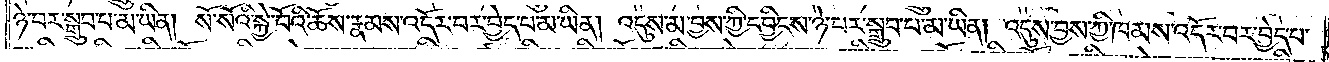ཉེ་བར་སྒྲུབ་པ་མ་ཡིན། སོ་སོའི་སྐྱེ་བོའི་ཆོས་རྣམས་འདོར་བར་བྱེད་པ་མ་ཡིན། འདུས་མ་བྱས་ཀྱི་དབྱིངས་ཉེ་བར་སྒྲུབ་པ་མ་ཡིན། འདུས་བྱས་ཀྱི་ཁམས་འདོར་བར་བྱེད་པ་
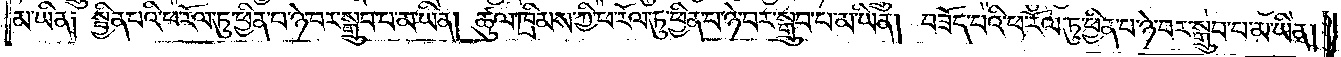མ་ཡིན། སྦྱིན་པའི་ཕ་རོལ་ཏུ་ཕྱིན་པ་ཉེ་བར་སྒྲུབ་པ་མ་ཡིན། ཚུལ་ཁྲིམས་ཀྱི་ཕ་རོལ་ཏུ་ཕྱིན་པ་ཉེ་བར་སྒྲུབ་པ་མ་ཡིན། བཟོད་པའི་ཕ་རོལ་ཏུ་ཕྱིན་པ་ཉེ་བར་སྒྲུབ་པ་མ་ཡིན།
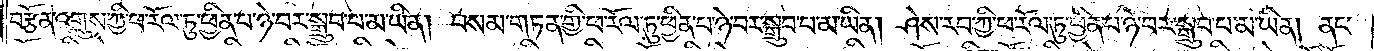བརྩོན་འགྲུས་ཀྱི་ཕ་རོལ་ཏུ་ཕྱིན་པ་ཉེ་བར་སྒྲུབ་པ་མ་ཡིན། བསམ་གཏན་གྱི་ཕ་རོལ་ཏུ་ཕྱིན་པ་ཉེ་བར་སྒྲུབ་པ་མ་ཡིན། ཤེས་རབ་ཀྱི་ཕ་རོལ་ཏུ་ཕྱིན་པ་ཉེ་བར་སྒྲུབ་པ་མ་ཡིན། ནང་
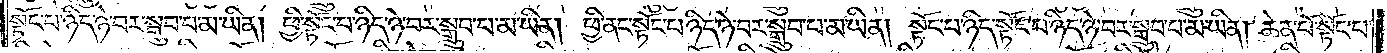སྟོང་པ་ཉིད་ཉེ་བར་སྒྲུབ་པ་མ་ཡིན། ཕྱི་སྟོང་པ་ཉིད་ཉེ་བར་སྒྲུབ་པ་མ་ཡིན། ཕྱི་ནང་སྟོང་པ་ཉིད་ཉེ་བར་སྒྲུབ་པ་མ་ཡིན། སྟོང་པ་ཉིད་སྟོང་པ་ཉིད་ཉེ་བར་སྒྲུབ་པ་མ་ཡིན། ཆེན་པོ་སྟོང་པ་
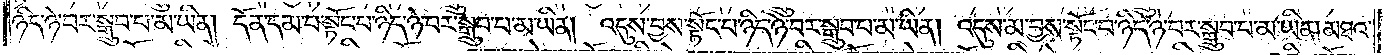ཉིད་ཉེ་བར་སྒྲུབ་པ་མ་ཡིན། དོན་དམ་པ་སྟོང་པ་ཉིད་ཉེ་བར་སྒྲུབ་པ་མ་ཡིན། འདུས་བྱས་སྟོང་པ་ཉིད་ཉེ་བར་སྒྲུབ་པ་མ་ཡིན། འདུས་མ་བྱས་སྟོང་པ་ཉིད་ཉེ་བར་སྒྲུབ་པ་མ་ཡིན། མཐའ་
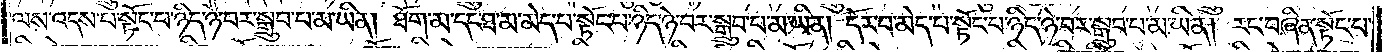ལས་འདས་པ་སྟོང་པ་ཉིད་ཉེ་བར་སྒྲུབ་པ་མ་ཡིན། ཐོག་མ་དང་ཐ་མ་མེད་པ་སྟོང་པ་ཉིད་ཉེ་བར་སྒྲུབ་པ་མ་ཡིན། དོར་བ་མེད་པ་སྟོང་པ་ཉིད་ཉེ་བར་སྒྲུབ་པ་མ་ཡིན། རང་བཞིན་སྟོང་པ་
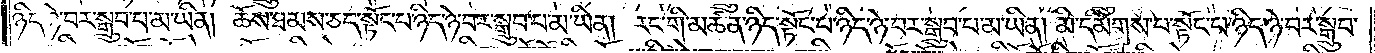ཉིད་ཉེ་བར་སྒྲུབ་པ་མ་ཡིན། ཆོས་ཐམས་ཅད་སྟོང་པ་ཉིད་ཉེ་བར་སྒྲུབ་པ་མ་ཡིན། རང་གི་མཚན་ཉིད་སྟོང་པ་ཉིད་ཉེ་བར་སྒྲུབ་པ་མ་ཡིན། མི་དམིགས་པ་སྟོང་པ་ཉིད་ཉེ་བར་སྒྲུབ་
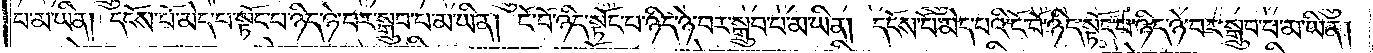པ་མ་ཡིན། དངོས་པོ་མེད་པ་སྟོང་པ་ཉིད་ཉེ་བར་སྒྲུབ་པ་མ་ཡིན། ངོ་བོ་ཉིད་སྟོང་པ་ཉིད་ཉེ་བར་སྒྲུབ་པ་མ་ཡིན། དངོས་པོ་མེད་པའི་ངོ་བོ་ཉིད་སྟོང་པ་ཉིད་ཉེ་བར་སྒྲུབ་པ་མ་ཡིན།
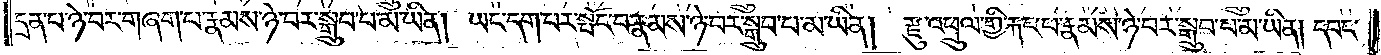དྲན་པ་ཉེ་བར་གཞག་པ་རྣམས་ཉེ་བར་སྒྲུབ་པ་མ་ཡིན། ཡང་དག་པར་སྤོང་བ་རྣམས་ཉེ་བར་སྒྲུབ་པ་མ་ཡིན། རྫུ་འཕྲུལ་གྱི་རྐང་པ་རྣམས་ཉེ་བར་སྒྲུབ་པ་མ་ཡིན། དབང་
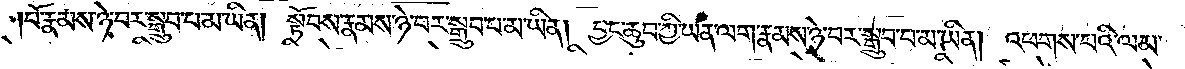པོ་རྣམས་ཉེ་བར་སྒྲུབ་པ་མ་ཡིན། སྟོབས་རྣམས་ཉེ་བར་སྒྲུབ་པ་མ་ཡིན། བྱང་ཆུབ་ཀྱི་ཡན་ལག་རྣམས་ཉེ་བར་སྒྲུབ་པ་མ་ཡིན། འཕགས་པའི་ལམ་
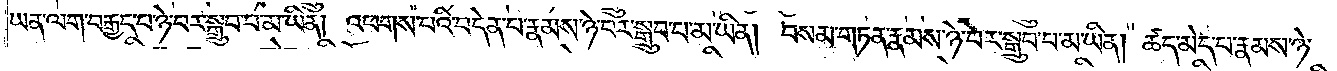ཡན་ལག་བརྒྱད་པ་ཉེ་བར་སྒྲུབ་པ་མ་ཡིན། འཕགས་པའི་བདེན་པ་རྣམས་ཉེ་བར་སྒྲུབ་པ་མ་ཡིན། བསམ་གཏན་རྣམས་ཉེ་བར་སྒྲུབ་པ་མ་ཡིན། ཚད་མེད་པ་རྣམས་ཉེ་
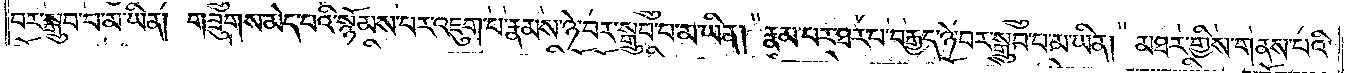བར་སྒྲུབ་པ་མ་ཡིན། གཟུགས་མེད་པའི་སྙོམས་པར་འཇུག་པ་རྣམས་ཉེ་བར་སྒྲུབ་པ་མ་ཡིན། རྣམ་པར་ཐར་པ་རྣམས་ཉེ་བར་སྒྲུབ་པ་མ་ཡིན། མཐར་གྱིས་གནས་པའི་
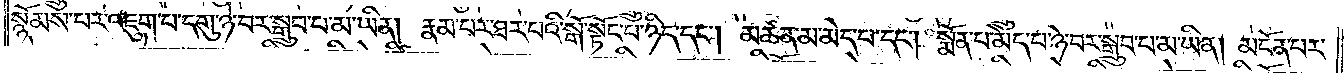སྙོམས་བར་འཇུག་པ་རྣམས་ཉེ་བར་སྒྲུབ་པ་མ་ཡིན། རྣམ་པར་ཐར་པའི་སྒོ་སྟོང་པ་ཉིད་དང༌། མཚན་མ་མེད་པ་དང༌། སྨོན་པ་མེད་པ་ཉེ་བར་སྒྲུབ་པ་མ་ཡིན། མངོན་པར་
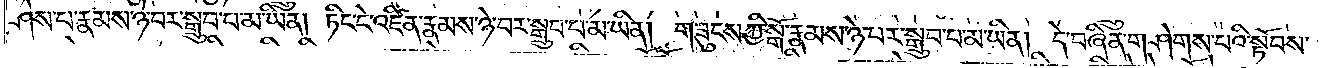ཤེས་པ་རྣམས་ཉེ་བར་སྒྲུབ་པ་མ་ཡིན། ཏིང་ངེ་འཛིན་རྣམས་ཉེ་བར་སྒྲུབ་པ་མ་ཡིན། གཟུངས་ཀྱི་སྒོ་རྣམས་ཉེ་བར་སྒྲུབ་པ་མ་ཡིན། དེ་བཞིན་གཤེགས་པའི་སྟོབས་
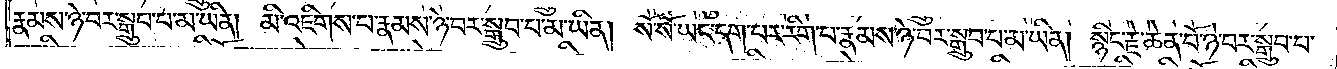རྣམས་ཉེ་བར་སྒྲུབ་པ་མ་ཡིན། མི་འཇིགས་པ་རྣམས་ཉེ་བར་སྒྲུབ་པ་མ་ཡིན། སོ་སོ་ཡང་དག་པར་རིག་པ་རྣམས་ཉེ་བར་སྒྲུབ་པ་མ་ཡིན། སྙིང་རྗེ་ཆེན་པོ་ཉེ་བར་སྒྲུབ་པ་
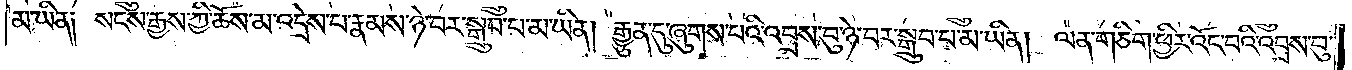མ་ཡིན། སངས་རྒྱས་ཀྱི་ཆོས་མ་འདྲེས་པ་རྣམས་ཉེ་བར་སྒྲུབ་པ་མ་ཡིན། རྒྱུན་དུ་ཞུགས་པའི་འབྲས་བུ་ཉེ་བར་སྒྲུབ་པ་མ་ཡིན། ལན་གཅིག་ཕྱིར་འོང་བའི་འབྲས་བུ་
